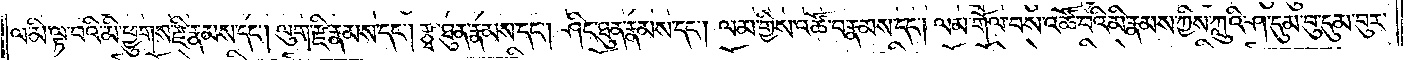ལ་མི་ལྟ་བའི་མི་ཕྱུགས་རྫི་རྣམས་དང༌། ལུག་རྫི་རྣམས་དང༌། རྩྭ་ཐུན་རྣམས་དང༌། ཤིང་ཐུན་རྣམས་དང༌། ལམ་གྱིས་འཚོ་བ་རྣམས་དང༌། ལམ་གོལ་བས་འཚོ་བའི་མི་རྣམས་ཀྱིས་ཀླུའི་ཤ་དུམ་བུ་དུམ་བུར་
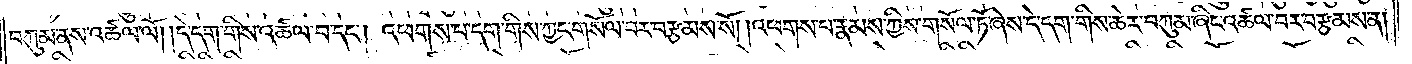བཀུམ་ནས་འཚལ་ལོ། །དེ་དག་གིས་འཚལ་བ་དང༌། འཕགས་པ་དག་གིས་ཀྱང་གསོལ་བར་བརྩམས་སོ། །འཕགས་པ་རྣམས་ཀྱིས་གསོལ་ཏོ་ཞེས་དེ་དག་གིས་ཆེར་བཀུམ་ཞིང་འཚལ་བར་བརྩམས་ན།
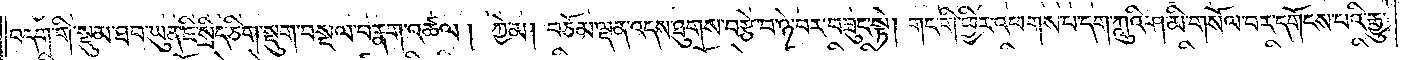བདག་གི་སྡུམ་ཐབ་ཡུན་ཇི་སྲིད་ཅིག་སྡུག་བསྔལ་བརྣག་འཚལ། ཀྱེ་མ། བཅོམ་ལྡན་འདས་ཐུགས་བརྩེ་བ་ཉེ་བར་བཟུང་སྟེ། གང་གི་ཕྱིར་འཕགས་པ་དག་ཀླུའི་ཤ་མི་གསོལ་བར་དགོངས་པའི་རྒྱུ་
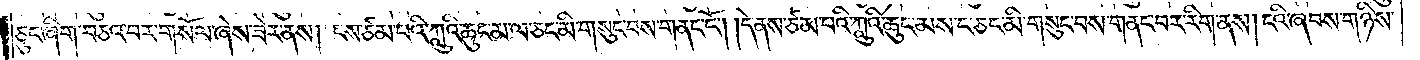ཅུང་ཞིག་བཅའ་བར་གསོལ་ཞེས་ཟེར་ནས། ངས་ཙམ་པའི་ཀླུའི་ཆུང་མ་ལ་ཅང་མི་གསུང་བས་གནང་ངོ༌། །དེ་ནས་ཙམ་པའི་ཀླུའི་ཆུང་མས་ང་ཅང་མི་གསུང་བས་གནང་བར་རིག་ནས། ངའི་ཞབས་གཉིས་
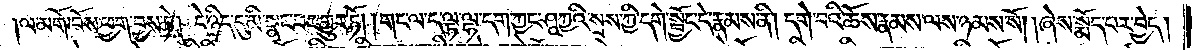ལ་མགོ་བོས་ཕྱག་བྱས་ཏེ། དེ་ཉིད་དུ་མི་སྣང་བར་གྱུར་ཏོ། །གང་ལ་ད་ལྟ་ལྷ་དག་ཀྱང་ཤཱཀྱའི་སྲས་ཀྱི་དགེ་སྦྱོང་དེ་རྣམས་ནི། དགེ་བའི་ཆོས་རྣམས་ལས་ཉམས་སོ། །ཞེས་སྨོད་པར་བྱེད།
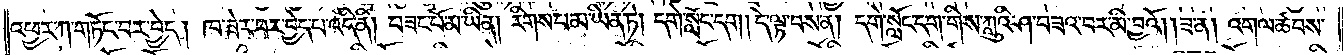འཕྱར་ཀ་གཏོང་བར་བྱེད། ཁ་ཟེར་བར་བྱེད་པ་འདི་ནི། བཟང་པོ་མ་ཡིན། རིགས་པ་མ་ཡིན་ཏེ། དགེ་སློང་དག །དེ་ལྟ་བས་ན། དགེ་སློང་དག་གིས་ཀླུའི་ཤ་བཟའ་བར་མི་བྱའོ། །ཟ་ན། འགལ་ཚབས་
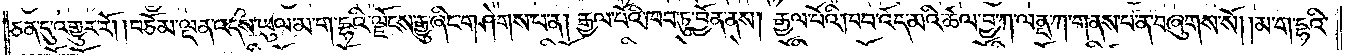ཅན་དུ་འགྱུར་རོ། །བཅོམ་ལྡན་འདས་ཡུལ་མ་ག་དྷའི་ལྗོངས་རྒྱུ་ཞིང་གཤེགས་པ་ན། རྒྱལ་པོའི་ཁབ་ཏུ་བྱོན་ནས། རྒྱལ་པོའི་ཁབ་འོད་མའི་ཚལ་བྱ་ཀ་ལནྡ་ཀ་གནས་པ་ན་བཞུགས་སོ། །མ་ག་དྷའི་
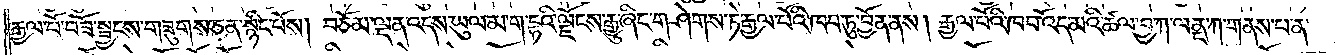རྒྱལ་པོ་བཟོ་སྦྱངས་གཟུགས་ཅན་སྙིང་པོས། བཅོམ་ལྡན་འདས་ཡུལ་མ་ག་དྷའི་ལྗོངས་རྒྱུ་ཞིང་གཤེགས་ཏེ་རྒྱལ་པོའི་ཁབ་ཏུ་བྱོན་ནས། རྒྱལ་པོའི་ཁབ་འོད་མའི་ཚལ་བྱ་ཀ་ལནྡ་ཀ་གནས་པ་ན་
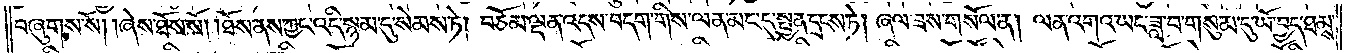བཞུགས་སོ། །ཞེས་ཐོས་སོ། །ཐོས་ནས་ཀྱང་འདི་སྙམ་དུ་སེམས་ཏེ། བཅོམ་ལྡན་འདས་བདག་གིས་ལན་མང་དུ་སྤྱན་དྲངས་ཏེ། ཞལ་ཟས་གསོལ་ན། ལན་འགའ་ཡང་ཟླ་ག་གསུམ་དུ་ཡོ་བྱད་ཐམས་
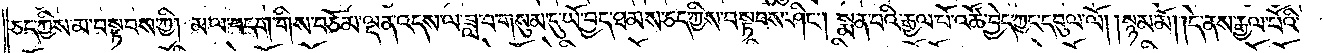ཅད་ཀྱིས་མ་བསྟབས་ཀྱི། མ་ལ་བདག་གིས་བཅོམ་ལྡན་འདས་ལ་ཟླ་བ་གསུམ་དུ་ཡོ་བྱད་ཐམས་ཅད་ཀྱིས་བསྟབས་ཤིང༌། སྨན་པའི་རྒྱལ་པོ་འཚོ་བྱེད་ཀྱང་དབུལ་ལོ། །སྙམ་མོ། །དེ་ནས་རྒྱལ་པོའི་
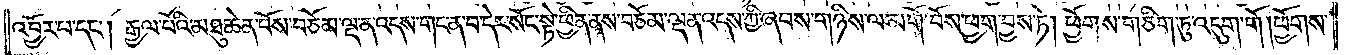འབྱོར་བ་དང༌། རྒྱལ་པོའི་མཐུ་ཆེན་པོས་བཅོམ་ལྡན་འདས་གང་ན་བདེར་སོང་སྟེ་ཕྱིན་ནས་བཅོམ་ལྡན་འདས་ཀྱི་ཞབས་གཉིས་ལ་མགོ་བོས་ཕྱག་བྱས་ཏེ། ཕྱོགས་གཅིག་ཏུ་འདུག་གོ །ཕྱོགས་
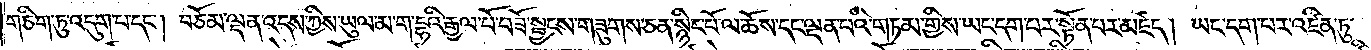གཅིག་ཏུ་འདུག་པ་དང༌། བཅོམ་ལྡན་འདས་ཀྱིས་ཡུལ་མ་ག་དྷའི་རྒྱལ་པོ་བཟོ་སྦྱངས་གཟུགས་ཅན་སྙིང་པོ་ལ་ཆོས་དང་ལྡན་པའི་གཏམ་གྱིས་ཡང་དག་པར་སྟོན་པར་མཛད། ཡང་དག་པར་འཛིན་ཏུ་
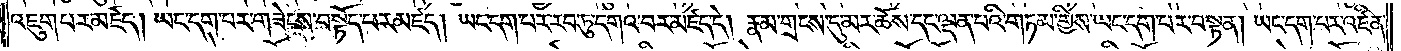འཇུག་པར་མཛད། ཡང་དག་པར་གཟེངས་བསྟོད་པར་མཛད། ཡང་དག་པར་རབ་ཏུ་དགའ་བར་མཛད་དེ། རྣམ་གྲངས་དུ་མར་ཆོས་དང་ལྡན་པའི་གཏམ་གྱིས་ཡང་དག་པར་བསྟན། ཡང་དག་པར་འཛིན་
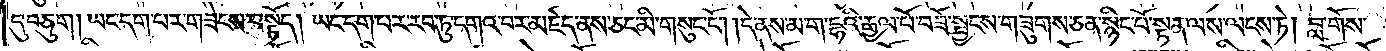དུ་བཅུག །ཡང་དག་པར་གཟེངས་བསྟོད། ཡང་དག་པར་རབ་ཏུ་དགའ་བར་མཛད་ནས་ཅང་མི་གསུང་ངོ༌། །དེ་ནས་མ་ག་དྷའི་རྒྱལ་པོ་བཟོ་སྦྱངས་གཟུགས་ཅན་སྙིང་པོ་སྟན་ལས་ལངས་ཏེ། བླ་གོས་
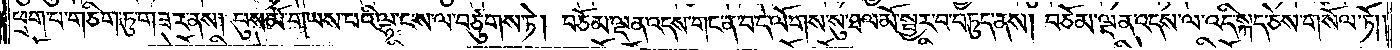ཕྲག་པ་གཅིག་ཏུ་གཟར་ནས། བུས་མོ་གཡས་པའི་ལྷ་ང་ས་ལ་བཙུགས་ཏེ། བཅོམ་ལྡན་འདས་གང་ན་བ་དེ་ལོགས་སུ་ཐལ་མོ་སྦྱར་བ་བཏུད་ནས། བཅོམ་ལྡན་འདས་ལ་འདི་སྐད་ཅེས་གསོལ་ཏོ། །
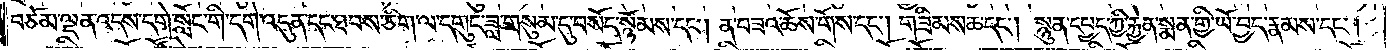བཅོམ་ལྡན་འདས་དགེ་སློང་གི་དགེ་འདུན་དང་ཐབས་ཅིག་ལ་དགུང་ཟླ་གསུམ་དུ་བསོད་སྙོམས་དང༌། ན་བཟའ་ཆོས་གོས་དང༌། གཟིམས་ཆ་དང༌། སྙུན་དཔྱད་ཀྱི་རྐྱེན་སྨན་གྱི་ཡོ་བྱད་རྣམས་དང༌།
